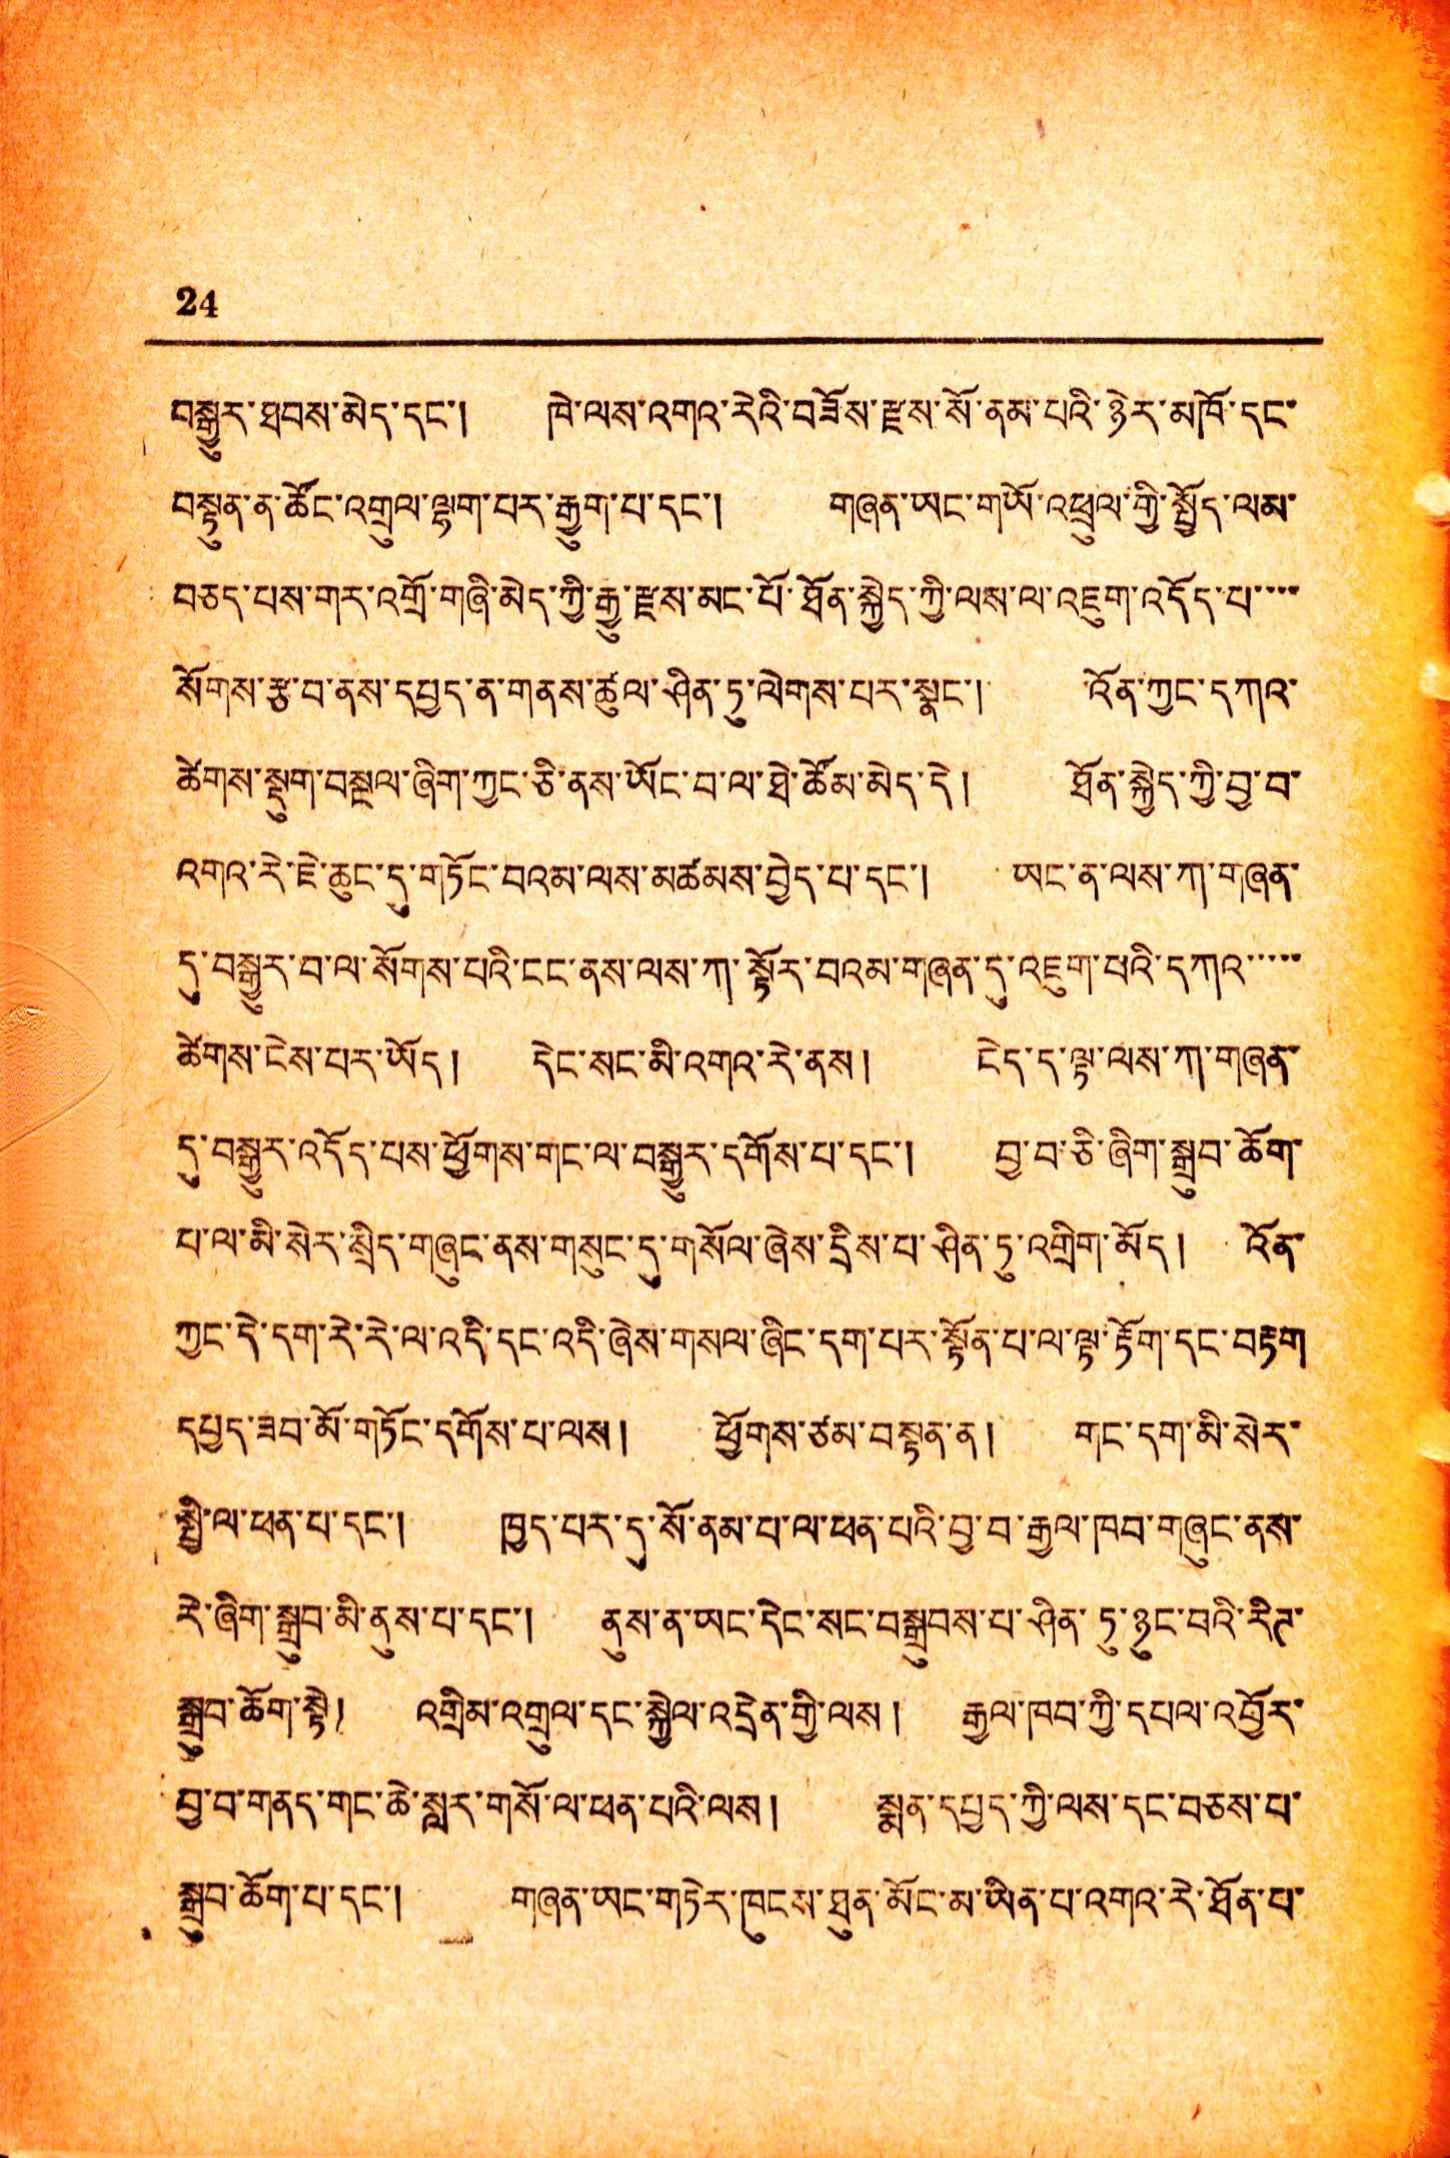24
བསྒྱུར་ཐབས་མེད་དང་། ཁེ་ལས་འགའ་རེའི་བཟོས་རྫས་སོ་ནམ་པའི་ཉེར་མཁོ་དང་
བསྟུན་ན་ཚོང་འགྲུལ་ལྷག་པར་རྒྱུག་པ་དང་། གཞན་ཡང་གཡོ་འཕྲུལ་གྱི་སྤྱོད་ལམ་
བཅད་པས་གར་འགྲོ་གཞི་མེད་ཀྱི་རྒྱུ་རྫས་མང་པོ་ཐོན་སྐྱེད་ཀྱི་ལས་ལ་འཇུག་འདོད་པ་་་་
སོགས་རྩ་བ་ནས་དཔྱད་ན་གནས་ཚུལ་ཤིན་ཏུ་ལེགས་པར་སྣང་། འོན་ཀྱང་དཀའ་
ཚེགས་སྡུག་བསྔལ་ཞིག་ཀྱང་ཅི་ནས་ཡོང་བ་ལ་ཐེ་ཚོམ་མེད་དེ། ཐོན་སྐྱེད་ཀྱི་བྱ་བ་
འགའ་རེ་ཇེ་ཆུང་དུ་གཏོང་བའམ་ལས་མཚམས་བྱེད་པ་དང་། ཡང་ན་ལས་ཀ་གཞན་
དུ་བསྒྱུར་བ་ལ་སོགས་པའི་ངང་ནས་ལས་ཀ་སྟོར་བའམ་གཞན་དུ་འཇུག་པའི་དཀའ་་་་་
ཚེགས་ངེས་བར་ཡོད། དེང་སང་མི་འགའ་རེ་ནས། ངེད་ད་ལྟ་ལས་ཀ་གཞན་
དུ་བསྒྱུར་འདོད་པས་ཕྱོགས་གང་ལ་བསྒྱུར་དགོས་པ་དང་། བྱ་བ་ཅི་ཞིག་སྒྲུབ་ཆོག་
པ་ལ་མི་སེར་སྲིད་གཞུང་ནས་གསུང་དུ་གསོལ་ཞེས་དྲིས་པ་ཤིན་ཏུ་འགྲིག་མོད། འོན་
ཀྱང་དེ་དག་རེ་རེ་ལ་འདི་དང་འདི་ཞེས་གསལ་ཞིང་དག་པར་སྟོན་པ་ལ་ལྟ་རྟོག་དང་བརྟག
དཔད་ཟབ་མོ་གཏོང་དགོས་པ་ལས། ཕྱོགས་ཙམ་བསྟན་ན། གང་དག་མི་སེར་
སྤྱི་ལ་ཕན་པ་དང་། ཁྱད་པར་དུ་སོ་ནམ་པ་ལ་ཕན་པའི་བྱ་བ་རྒྱལ་ཁབ་གཞུང་ནས་
རེ་ཞིག་སྒྲུབ་མི་ནུས་པ་དང་། ནུས་ན་ཡང་དེང་སང་བསྒྲུབས་པ་ཤིན་ཏུ་ཉུང་བའི་རིཊ་
སྒྲུབ་ཆོག་སྟེ། འགྲིམ་འགྲུལ་དང་སྐྱེལ་འདྲེན་གྱི་ལས། རྒྱལ་ཁབ་ཀྱི་དཔལ་འབྱོར་
བྱ་བ་གནད་གང་ཆེ་སླར་གསོ་ལ་ཕན་པའི་ལས། སྨན་དཔད་ཀྱི་ལས་དང་བཅས་པ་
སྒྲུབ་ཆོག་པ་དང་། གཞན་ཡང་གཏེར་ཁུངས་ཐུན་མོང་མ་ཡིན་པ་འགའ་རེ་ཐོན་པ་
